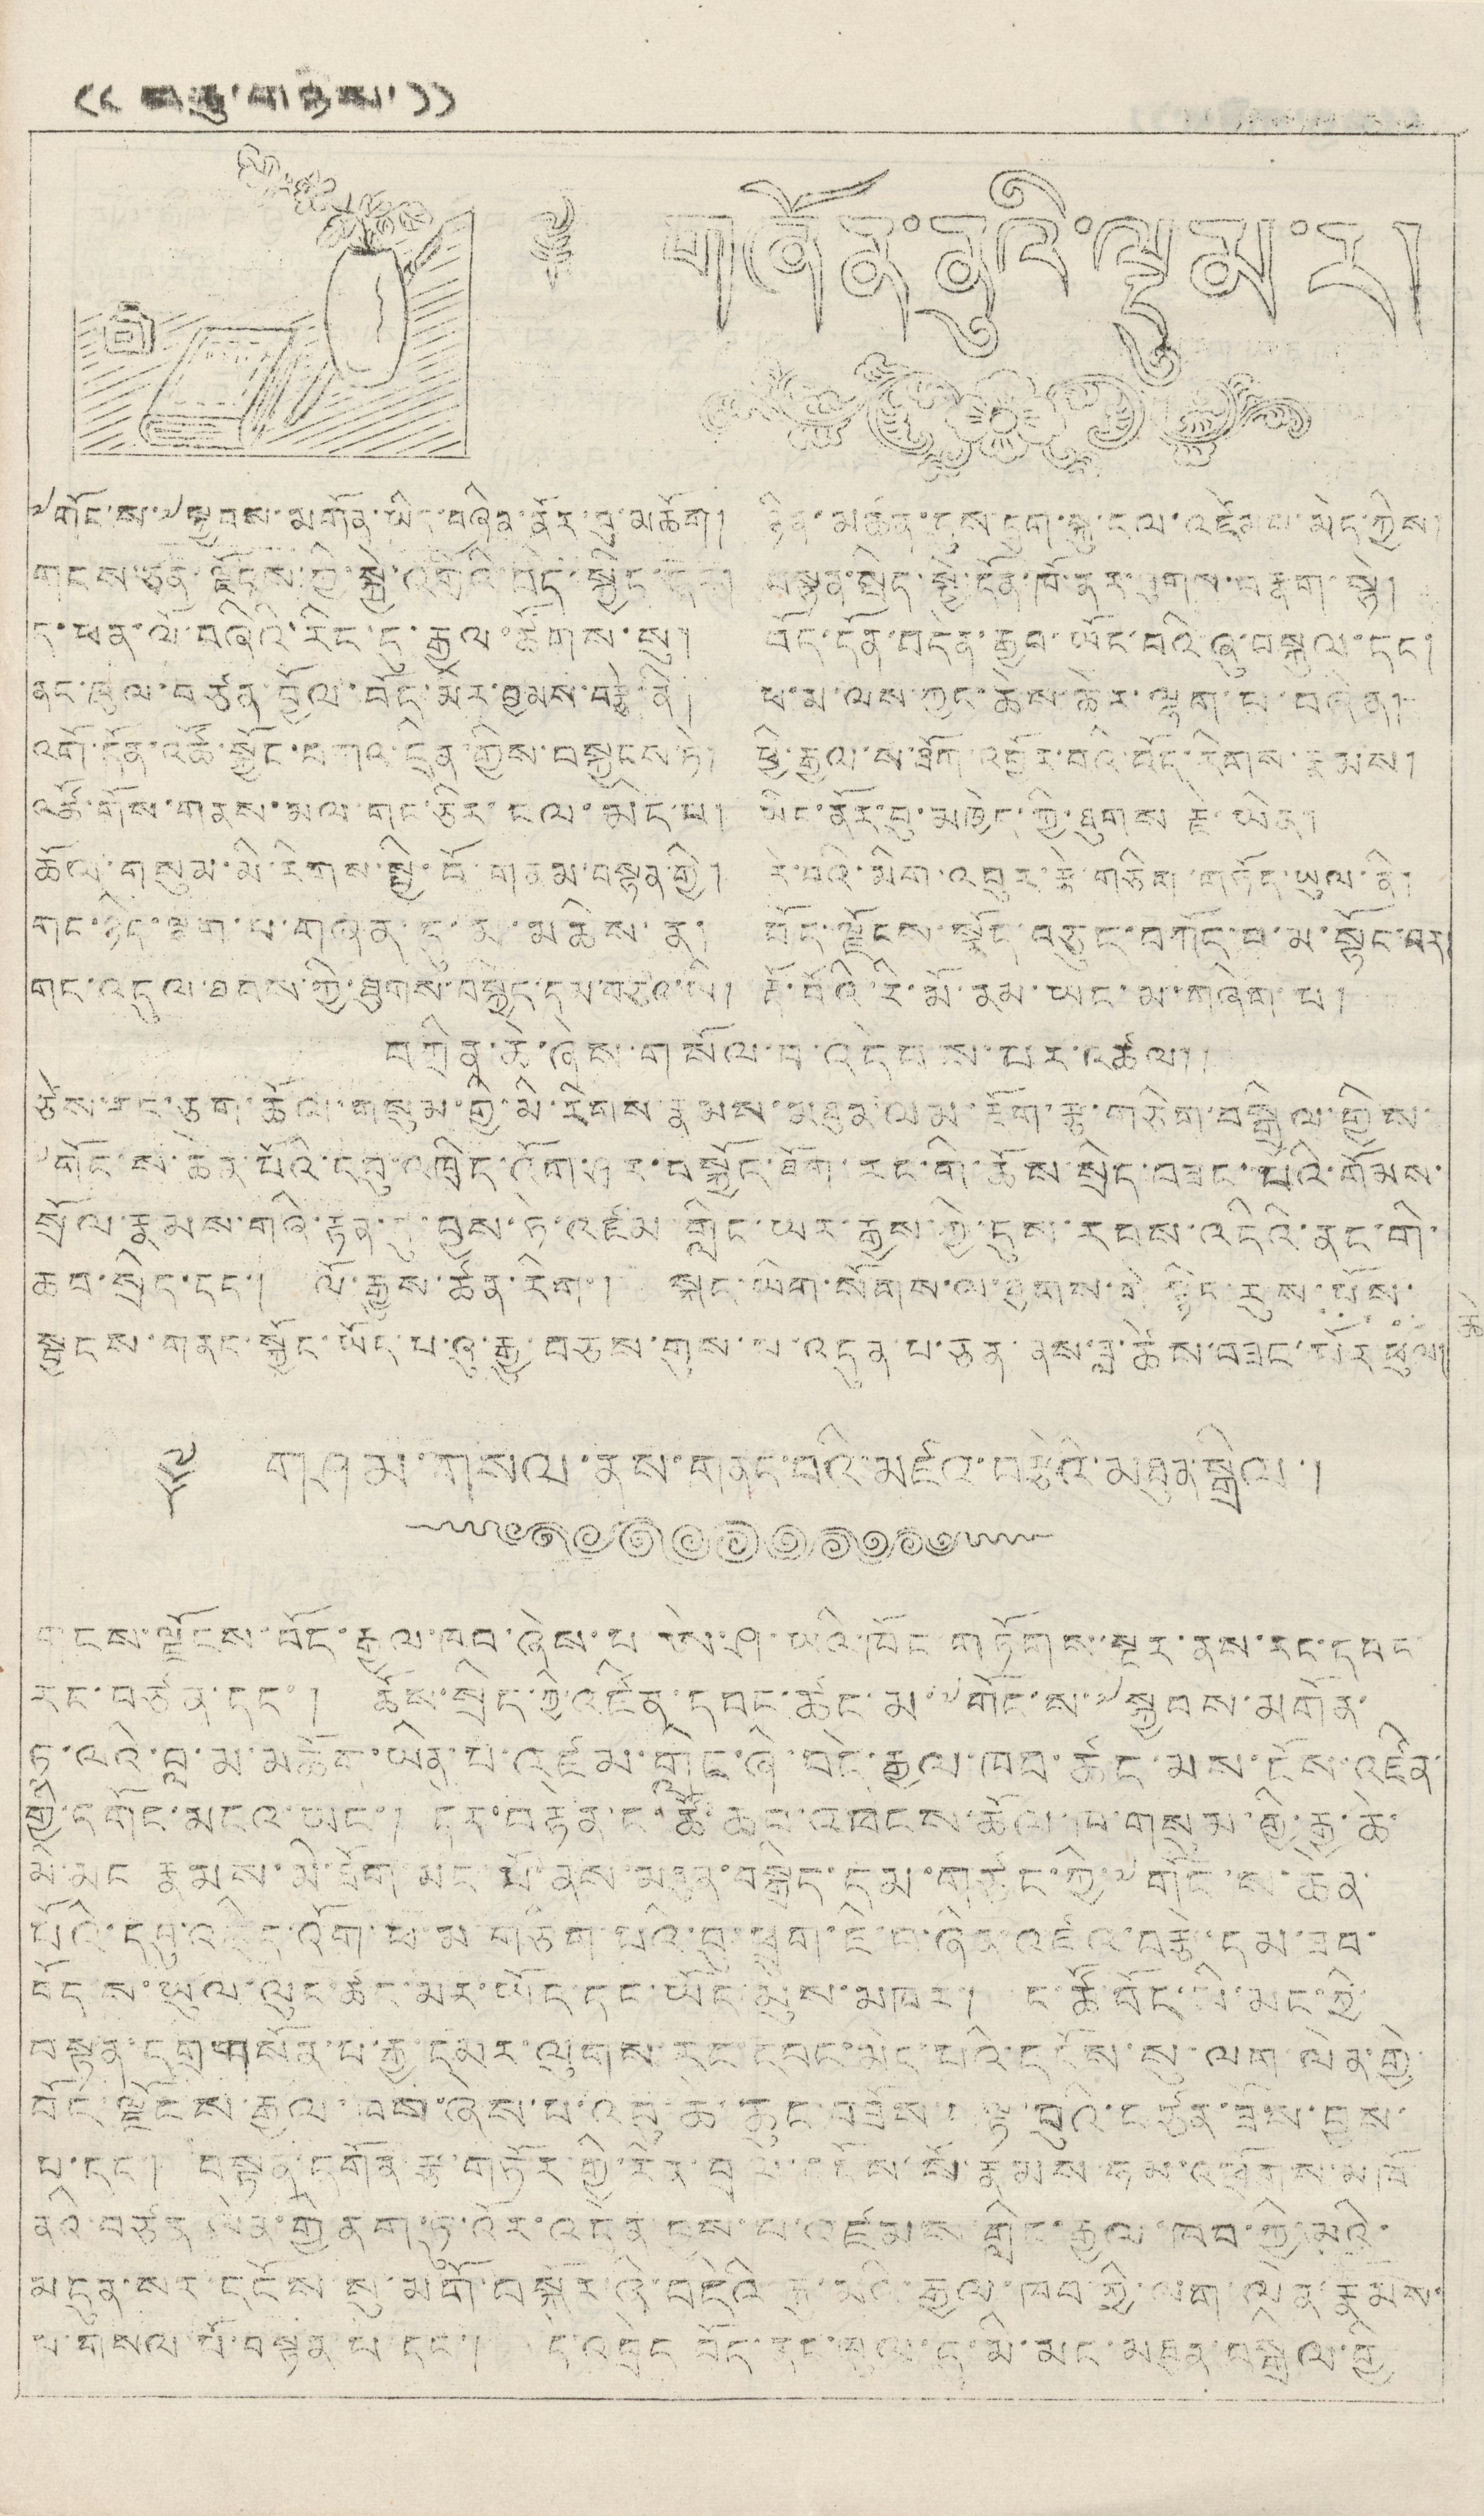(( བཅུ་གཉིས་ ))
༈ གཞོན་ནུའི་ལྡུམ་ར།
༸གོང་ས་༸སྐྱབས་མགོན་ཡིད་བཞིན་ནོར་བུ་མཆོག། ཉིན་མཚན་དུས་དྲུག་སྐུ་ངལ་འཛེམས་མེད་ཀྱིས།
གངས་ཅན་ལྗོངས་ཀྱི་སྐྱེ་འགྲོའི་བདེ་སྐྱིད་དང་། བསྟན་སྲིད་སྤྱི་དོན་ཁོ་ནར་ཐུགས་བརྣག་སྟེ།
ད་ཕན་ལོ་བཞིའི་རིང་དུ་རྒྱལ་ཚོགས་སུ། བོད་དོན་བདེན་རྒྱབ་ཡོངས་བའི་ཞུ་བསྐུལ་དང་།
ནང་ཁུལ་བཙན་བྱོལ་བོད་མིར་བྱམས་བརྩེ་ནི། ཕ་མ་ལས་ཀྱང་ཆེས་ཆེར་ལྷག་པ་བཞིན།
འགོ་དོན་འཚོ་སྐྱོང་བཀའ་དྲིན་གྱིས་བསྐྱངས་ཏེ། ཕྱི་རྒྱལ་ས་ཐོག་འབྱོར་བའི་བོད་རིགས་རྣམས།
འཚོ་གོས་གནས་མལ་གང་ཅིར་ངལ་མེད་པ། ཡིད་ནོར་བུ་མཁྱེན་ཀྱི་ཐུགས་རྗེ་ཡིན།
ཆོལ་གསུམ་མི་རིགས་སྤྱི་བོ་གནམ་བསྟན་གྱི། རེ་བའི་མིག་འབུར་རྣེ་གཅིག་གཏོད་ཡུལ་ནི།
གང་ཉིད་ལྷག་པ་གཞན་དུ་མ་མཆིས་ནས། བོད་ལྗོངས་སྣོད་བཅུད་བཀོད་བ་མ་སྟོང་བར།
གང་འདུལ་ཐབས་ཀྱི་ཐུགས་བསྐྱེད་དམ་བཅའ་ཡི། རྡོ་བོའི་རི་མོ་ནམ་ཡང་མ་གཞིག་པ།
བཀྲིན་ཆེ་ཞེས་གསོལ་བ་འདེབས་པར་འཚལ།།
ཙེས་རང་ཅག་ཆོལ་གསུམ་གྱི་མི་རིགས་རྣམས་མཐུན་ལམ་རྡོག་རྩ་གཅིག་བསྒྲིལ་གྱིས་
༸གོང་ས་ཆེན་པོའི་དབུ་འཁྲིད་འོག་ཤར་བསྐྱོད་ཐོག་རང་གི་ཆོས་སྲིད་བཟང་པའི་གོམས་
སྲོལ་རྣམས་གཞི་རྟན་དུ་བྱས་ཏེ་འཛམ་གླིང་ཡར་རྒྱས་ཀྱི་དུས་རབས་འདིའི་ནང་གི་
ཆབ་སྲིད་དང་། ལོ་རྒྱུས་ཚན་རིག་། སྐད་ཡིག་སོགས་ལ་ཐུགས་རེ་སྙིང་རུས་པོས་
སྦྱངས་གནང་སྐྱོང་ཡོད་པ་ཞུ་རྒྱུ་བཅས་གུས་པ་འདུན་པ་ཅན་ནས་ཟླ་ཚེས་བཟང་པོར་ཕུལ།
༈ གཤམ་གསལ་ནས་གནང་བའི་མཛའ་བརྩེའི་མཐུན་སྒྲིལ་།
གངས་ལྗོངས་བོད་རྒྱལ་ཁབ་ཞེས་པ་ཨེ་ཤ་ཡའི་ཁོང་གཏོགས་སྔར་ནས་རང་དབང་
རང་བཙན་དང་། ཆོས་སྲིད་ཀྱི་འཛིན་དབང་ཚང་མ་༸གོང་ས་༸སྐྱབས་མགོན་
ཏ་ལའི་བླ་མ་མཆོག་ཡིན་པ་འཛམ་གླིང་ཞི་བདེ་རྒྱལ་ཁབ་ཚང་མས་ངོས་འཛིན་
གྱི་དགོང་མངའ་ཡང་། དེར་བརྟེན་ང་ཚོ་ཆབ་འཁེངས་ཆོལ་ཁ་གསུམ་གྱི་རྒྱ་ཆེ་
མི་མང་རྣམས་མི་ཐོག་མང་པོ་ནས་མཐུན་བསྒྲིད་དམ་གཙང་གྱི་༸གོང་ས་ཆེན་
པོའི་དབུ་འཁྲིད་འོག་ཕ་མ་གཅིག་པའི་བུ་ཕྲུག་ཇི་བཞིན་འཛའ་བརྩེ་དམ་ཟབ་
བོད་ས་ཡུལ་ལུང་ཚང་མར་ཡོད་དང་ཡོད་མུས་མཁར་། ང་ཚོ་བོད་མི་མང་ཀྱི་
བསྟན་དགྲ་གསོན་པ་རྒྱ་དམར་ལུགས་རང་དབང་མེད་པའི་དངོས་སུ་ལག་ལེན་གྱི་
བོད་ལྗོངས་རྒྱལ་ཁབ་ཞེས་པ་འབུ་ཆེ་ཆུང་བཟོས་བ་ལྟ་བུའི་བཙན་ཟོས་བྱས་
པ་དང་། བསྟན་དགོན་རྩ་གཏོང་གྱི་རིན་བྲལ་དངོས་སོ་རྣམས་ཧམ་འཕྲོགས་འཁོ་
ནའི་བཙན་ལེན་གྱི་ནག་ཏུ་འོར་འདྲེན་བྱས་པ་འཛམས་གླིང་རྒྱལ་ཁབ་ཀྱི་མའི་
མདུན་སར་དངོས་སི་མགོ་བསྐོར་ཞི་བདེའི་རྐུ་མའི་རྒྱལ་ཁབ་ཀྱི་ལག་ལེན་རྣམས་
པ་གསལ་པོ་བསྟན་པ་དང་། དེ་འབྲེང བོད་ནང་ཁུལ་དུ་མི་མང་མཐུན་བསྒྲིལ་གྱི
